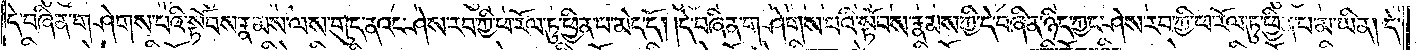དེ་བཞིན་གཤེགས་པའི་སྟོབས་རྣམས་ལས་གུད་ནའང་ཤེས་རབ་ཀྱི་ཕ་རོལ་ཏུ་ཕྱིན་པ་མེད་དོ། །དེ་བཞིན་གཤེགས་པའི་སྟོབས་རྣམས་ཀྱི་དེ་བཞིན་ཉིད་ཀྱང་ཤེས་རབ་ཀྱི་ཕ་རོལ་ཏུ་ཕྱིན་པ་མ་ཡིན། དེ་
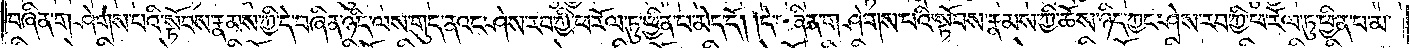བཞིན་གཤེགས་པའི་སྟོབས་རྣམས་ཀྱི་དེ་བཞིན་ཉིད་ལས་གུད་ནའང་ཤེས་རབ་ཀྱི་ཕ་རོལ་ཏུ་ཕྱིན་པ་མེད་དོ། །དེ་བཞིན་གཤེགས་པའི་སྟོབས་རྣམས་ཀྱི་ཆོས་ཉིད་ཀྱང་ཤེས་རབ་ཀྱི་ཕ་རོལ་ཏུ་ཕྱིན་པ་མ་
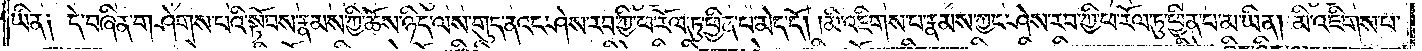ཡིན། དེ་བཞིན་གཤེགས་པའི་སྟོབས་རྣམས་ཀྱི་ཆོས་ཉིད་ལས་གུད་ནའང་ཤེས་རབ་ཀྱི་ཕ་རོལ་ཏུ་ཕྱིན་པ་མེད་དོ། །མི་འཇིགས་པ་རྣམས་ཀྱང་ཤེས་རབ་ཀྱི་ཕ་རོལ་ཏུ་ཕྱིན་པ་མ་ཡིན། མི་འཇིགས་པ་
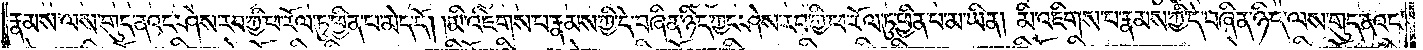རྣམས་ལས་གུད་ནའང་ཤེས་རབ་ཀྱི་ཕ་རོལ་ཏུ་ཕྱིན་པ་མེད་དོ། །མི་འཇིགས་པ་རྣམས་ཀྱི་དེ་བཞིན་ཉིད་ཀྱང་ཤེས་རབ་ཀྱི་ཕ་རོལ་ཏུ་ཕྱིན་པ་མ་ཡིན། མི་འཇིགས་པ་རྣམས་ཀྱི་དེ་བཞིན་ཉིད་ལས་གུད་ནའང་
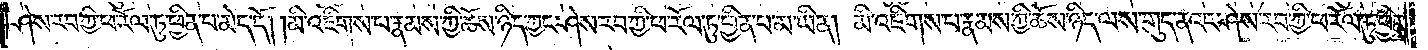ཤེས་རབ་ཀྱི་ཕ་རོལ་ཏུ་ཕྱིན་པ་མེད་དོ། །མི་འཇིགས་པ་རྣམས་ཀྱི་ཆོས་ཉིད་ཀྱང་ཤེས་རབ་ཀྱི་ཕ་རོལ་ཏུ་ཕྱིན་པ་མ་ཡིན། མི་འཇིགས་པ་རྣམས་ཀྱི་ཆོས་ཉིད་ལས་གུད་ནའང་ཤེས་རབ་ཀྱི་ཕ་རོལ་ཏུ་ཕྱིན་
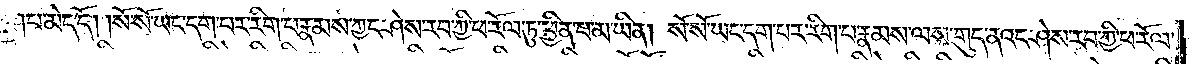པ་མེད་དོ། །སོ་སོ་ཡང་དག་པར་རིག་པ་རྣམས་ཀྱང་ཤེས་རབ་ཀྱི་ཕ་རོལ་ཏུ་ཕྱིན་པ་མ་ཡིན། སོ་སོ་ཡང་དག་པར་རིག་པ་རྣམས་ལས་གུད་ནའང་ཤེས་རབ་ཀྱི་ཕ་རོལ་
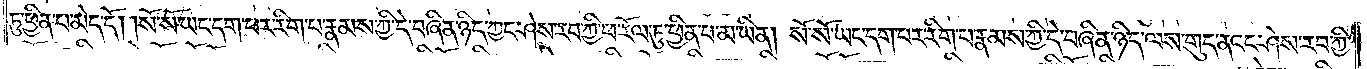ཏུ་ཕྱིན་པ་མེད་དོ། །སོ་སོ་ཡང་དག་པར་རིག་པ་རྣམས་ཀྱི་དེ་བཞིན་ཉིད་ཀྱང་ཤེས་རབ་ཀྱི་ཕ་རོལ་ཏུ་ཕྱིན་པ་མ་ཡིན། སོ་སོ་ཡང་དག་པར་རིག་པ་རྣམས་ཀྱི་དེ་བཞིན་ཉིད་ལས་གུད་ནའང་ཤེས་རབ་ཀྱི་
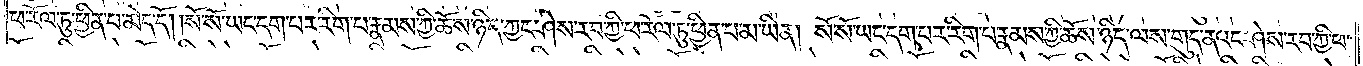ཕ་རོལ་ཏུ་ཕྱིན་པ་མེད་དོ། །སོ་སོ་ཡང་དག་པར་རིག་པ་རྣམས་ཀྱི་ཆོས་ཉིད་ཀྱང་ཤེས་རབ་ཀྱི་ཕ་རོལ་ཏུ་ཕྱིན་པ་མ་ཡིན། སོ་སོ་ཡང་དག་པར་རིག་པ་རྣམས་ཀྱི་ཆོས་ཉིད་ལས་གུད་ནའང་ཤེས་རབ་ཀྱི་ཕ་
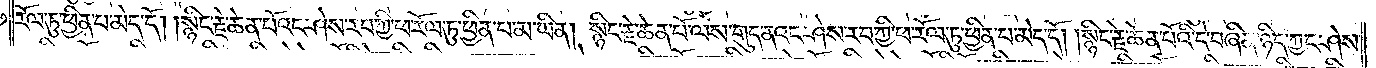རོལ་ཏུ་ཕྱིན་པ་མེད་དོ། །སྙིང་རྗེ་ཆེན་པོའང་ཤེས་རབ་ཀྱི་ཕ་རོལ་ཏུ་ཕྱིན་པ་མ་ཡིན། སྙིང་རྗེ་ཆེན་པོ་ལས་གུད་ནའང་ཤེས་རབ་ཀྱི་ཕ་རོལ་ཏུ་ཕྱིན་པ་མེད་དོ། །སྙིང་རྗེ་ཆེན་པོའི་དེ་བཞིན་ཉིད་ཀྱང་ཤེས་
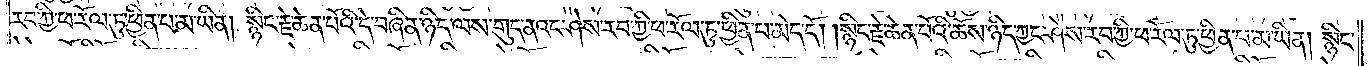རབ་ཀྱི་ཕ་རོལ་ཏུ་ཕྱིན་པ་མ་ཡིན། སྙིང་རྗེ་ཆེན་པོའི་དེ་བཞིན་ཉིད་ལས་གུད་ནའང་ཤེས་རབ་ཀྱི་ཕ་རོལ་ཏུ་ཕྱིན་པ་མེད་དོ། །སྙིང་རྗེ་ཆེན་པོའི་ཆོས་ཉིད་ཀྱང་ཤེས་རབ་ཀྱི་ཕ་རོལ་ཏུ་ཕྱིན་པ་མ་ཡིན། སྙིང་
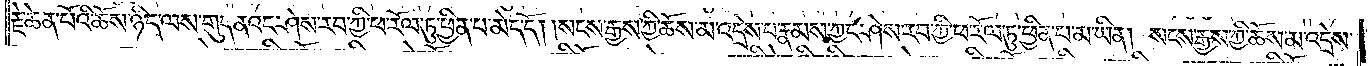རྗེ་ཆེན་པོའི་ཆོས་ཉིད་ལས་གུད་ནའང་ཤེས་རབ་ཀྱི་ཕ་རོལ་ཏུ་ཕྱིན་པ་མེད་དོ། །སངས་རྒྱས་ཀྱི་ཆོས་མ་འདྲེས་པ་རྣམས་ཀྱང་ཤེས་རབ་ཀྱི་ཕ་རོལ་ཏུ་ཕྱིན་པ་མ་ཡིན། སངས་རྒྱས་ཀྱི་ཆོས་མ་འདྲེས་
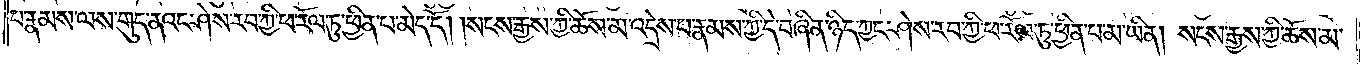པ་རྣམས་ལས་གུད་ནའང་ཤེས་རབ་ཀྱི་ཕ་རོལ་ཏུ་ཕྱིན་པ་མེད་དོ། །སངས་རྒྱས་ཀྱི་ཆོས་མ་འདྲེས་པ་རྣམས་ཀྱི་དེ་བཞིན་ཉིད་ཀྱང་ཤེས་རབ་ཀྱི་ཕ་རོལ་ཏུ་ཕྱིན་པ་མ་ཡིན། སངས་རྒྱས་ཀྱི་ཆོས་མ་
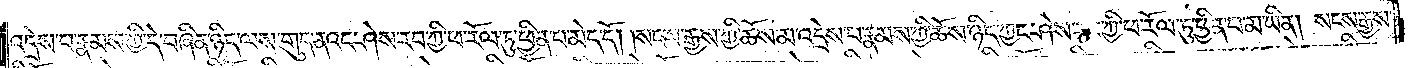འདྲེས་པ་རྣམས་ཀྱི་དེ་བཞིན་ཉིད་ལས་གུད་ནའང་ཤེས་རབ་ཀྱི་ཕ་རོལ་ཏུ་ཕྱིན་པ་མེད་དོ། སངས་རྒྱས་ཀྱི་ཆོས་མ་འདྲེས་པ་རྣམས་ཀྱི་ཆོས་ཉིད་ཀྱང་ཤེས་རབ་ཀྱི་ཕ་རོལ་ཏུ་ཕྱིན་པ་མ་ཡིན། སངས་རྒྱས་
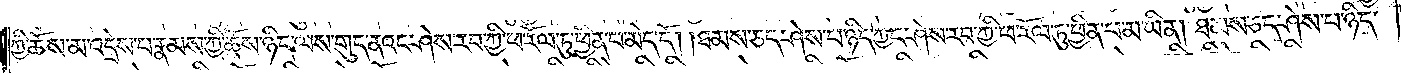ཀྱི་ཆོས་མ་འདྲེས་པ་རྣམས་ཀྱི་ཆོས་ཉིད་ལས་གུད་ནའང་ཤེས་རབ་ཀྱི་ཕ་རོལ་ཏུ་ཕྱིན་པ་མེད་དོ། །ཐམས་ཅད་ཤེས་པ་ཉིད་ཀྱང་ཤེས་རབ་ཀྱི་ཕ་རོལ་ཏུ་ཕྱིན་པ་མ་ཡིན། ཐམས་ཅད་ཤེས་པ་ཉིད་
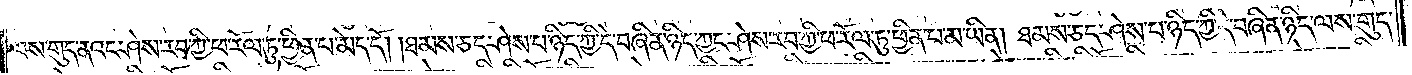ལས་གུད་ནའང་ཤེས་རབ་ཀྱི་ཕ་རོལ་ཏུ་ཕྱིན་པ་མེད་དོ། །ཐམས་ཅད་ཤེས་པ་ཉིད་ཀྱི་དེ་བཞིན་ཉིད་ཀྱང་ཤེས་རབ་ཀྱི་ཕ་རོལ་ཏུ་ཕྱིན་པ་མ་ཡིན། ཐམས་ཅད་ཤེས་པ་ཉིད་ཀྱི་དེ་བཞིན་ཉིད་ལས་གུད་
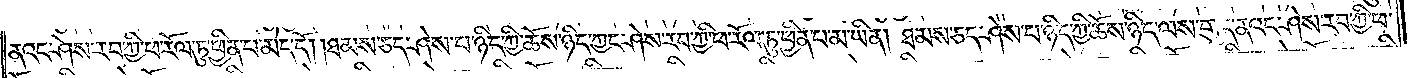ནའང་ཤེས་རབ་ཀྱི་ཕ་རོལ་ཏུ་ཕྱིན་པ་མེད་དོ། །ཐམས་ཅད་ཤེས་པ་ཉིད་ཀྱི་ཆོས་ཉིད་ཀྱང་ཤེས་རབ་ཀྱི་ཕ་རོལ་ཏུ་ཕྱིན་པ་མ་ཡིན། ཐམས་ཅད་ཤེས་བ་ཉིད་ཀྱི་ཆོས་ཉིད་ལས་གུད་ནའང་ཤེས་རབ་ཀྱི་ཕ་
